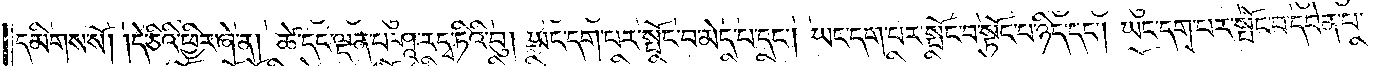དམིགས་སོ། །དེ་ཅིའི་ཕྱིར་ཞེ་ན། ཚེ་དང་ལྡན་པ་ཤཱ་རདྭ་ཏིའི་བུ། ཡང་དག་པར་སྤོང་བ་མེད་པ་དང༌། ཡང་དག་པར་སྤོང་བ་སྟོང་པ་ཉིད་དང༌། ཡང་དག་པར་སྤོང་བ་དབེན་པ་
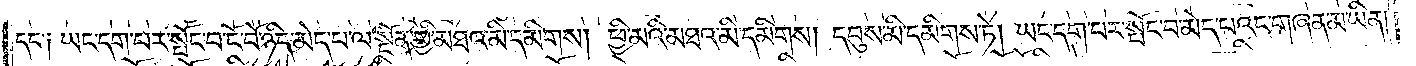དང་༑ ཡང་དག་པར་སྤོང་བ་ངོ་བོ་ཉིད་མེད་པ་ལ་སྔོན་གྱི་མཐའ་མི་དམིགས། ཕྱི་མའི་མཐའ་མི་དམིགས། དབུས་མི་དམིགས་ཏེ། ཡང་དག་པར་སྤོང་བ་མེད་པའང་གཞན་མ་ཡིན།
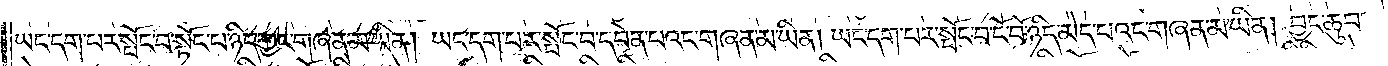ཡང་དག་པར་སྤོང་བ་སྟོང་པ་ཉིད་ཀྱང་གཞན་མ་ཡིན། ཡང་དག་པར་སྤོང་བ་དབེན་པའང་གཞན་མ་ཡིན། ཡང་དག་པར་སྤོང་བ་ངོ་བོ་ཉིད་མེད་པའང་གཞན་མ་ཡིན། བྱང་ཆུབ་
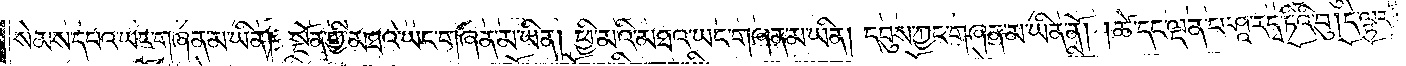སེམས་དཔའ་ཡང་གཞན་མ་ཡིན། སྔོན་གྱི་མཐའ་ཡང་གཞན་མ་ཡིན། ཕྱི་མའི་མཐའ་ཡང་གཞན་མ་ཡིན། དབུས་ཀྱང་གཞན་མ་ཡིན་ནོ། །ཚེ་དང་ལྡན་པ་ཤཱ་རདྭ་ཏིའི་བུ། དེ་ལྟར་
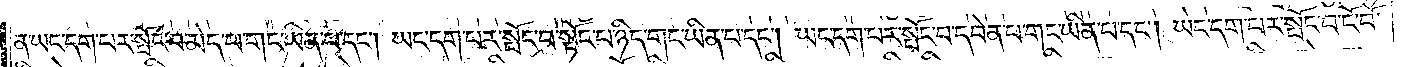ན་ཡང་དག་པར་སྤོང་བ་མེད་པ་གང་ཡིན་པ་དང༌། ཡང་དག་པར་སྤོང་བ་སྟོང་པ་ཉིད་གང་ཡིན་པ་དང༌། ཡང་དག་པར་སྤོང་བ་དབེན་པ་གང་ཡིན་པ་དང༌། ཡང་དག་པར་སྤོང་བ་ངོ་བོ་
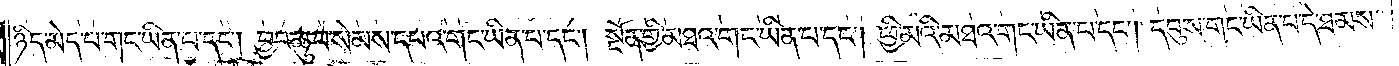ཉིད་མེད་པ་གང་ཡིན་པ་དང༌། བྱང་ཆུབ་སེམས་དཔའ་གང་ཡིན་པ་དང༌། སྔོན་གྱི་མཐའ་གང་ཡིན་པ་དང༌། ཕྱི་མའི་མཐའ་གང་ཡིན་པ་དང༌། དབུས་གང་ཡིན་པ་དེ་ཐམས་
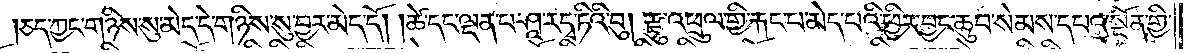ཅད་ཀྱང་གཉིས་སུ་མེད་དེ་གཉིས་སུ་བྱར་མེད་དོ། །ཚེ་དང་ལྡན་པ་ཤཱ་རདྭ་ཏིའི་བུ། རྫུ་འཕྲུལ་གྱི་རྐང་པ་མེད་པའི་ཕྱིར་བྱང་ཆུབ་སེམས་དཔའ་སྔོན་གྱི་
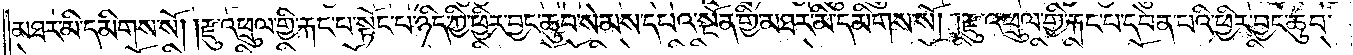མཐར་མི་དམིགས་སོ། །རྫུ་འཕྲུལ་གྱི་རྐང་པ་སྟོང་པ་ཉིད་ཀྱི་ཕྱིར་བྱང་ཆུབ་སེམས་དཔའ་སྔོན་གྱི་མཐར་མི་དམིགས་སོ། །རྫུ་འཕྲུལ་གྱི་རྐང་པ་དབེན་པའི་ཕྱིར་བྱང་ཆུབ་
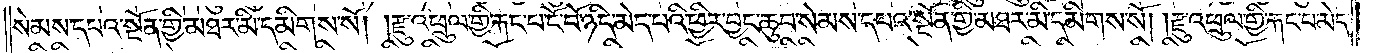སེམས་དཔའ་སྔོན་གྱི་མཐར་མི་དམིགས་སོ། །རྫུ་འཕྲུལ་གྱི་རྐང་པ་ངོ་བོ་ཉིད་མེད་པའི་ཕྱིར་བྱང་ཆུབ་སེམས་དཔའ་སྔོན་གྱི་མཐར་མི་དམིགས་སོ། །རྫུ་འཕྲུལ་གྱི་རྐང་པ་མེད་
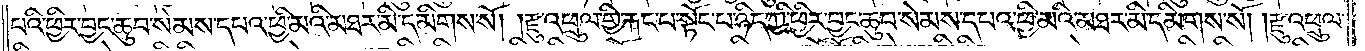པའི་ཕྱིར་བྱང་ཆུབ་སེམས་དཔའ་ཕྱི་མའི་མཐར་མི་དམིགས་སོ། །རྫུ་འཕྲུལ་གྱི་རྐང་པ་སྟོང་པ་ཉིད་ཀྱི་ཕྱིར་བྱང་ཆུབ་སེམས་དཔའ་ཕྱི་མའི་མཐར་མི་དམིགས་སོ། །རྫུ་འཕྲུལ་
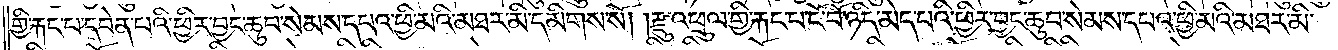གྱི་རྐང་པ་དབེན་པའི་ཕྱིར་བྱང་ཆུབ་སེམས་དཔའ་ཕྱི་མའི་མཐར་མི་དམིགས་སོ། །རྫུ་འཕྲུལ་གྱི་རྐང་པ་ངོ་བོ་ཉིད་མེད་པའི་ཕྱིར་བྱང་ཆུབ་སེམས་དཔའ་ཕྱི་མའི་མཐར་མི་
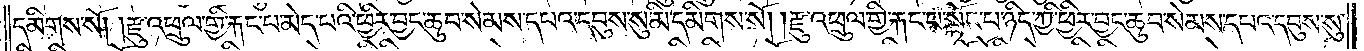དམིགས་སོ། །རྫུ་འཕྲུལ་གྱི་རྐང་པ་མེད་པའི་ཕྱིར་བྱང་ཆུབ་སེམས་དཔའ་དབུས་སུ་མི་དམིགས་སོ། །རྫུ་འཕྲུལ་གྱི་རྐང་པ་སྟོང་པ་ཉིད་ཀྱི་ཕྱིར་བྱང་ཆུབ་སེམས་དཔའ་དབུས་སུ་
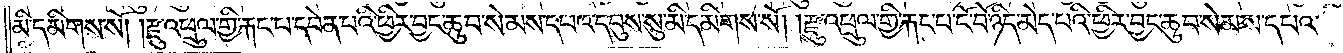མི་དམིགས་སོ། །རྫུ་འཕྲུལ་གྱི་རྐང་པ་དབེན་པའི་ཕྱིར་བྱང་ཆུབ་སེམས་དཔའ་དབུས་སུ་མི་དམིགས་སོ། །རྫུ་འཕྲུལ་གྱི་རྐང་པ་ངོ་བོ་ཉིད་མེད་པའི་ཕྱིར་བྱང་ཆུབ་སེམས་དཔའ་
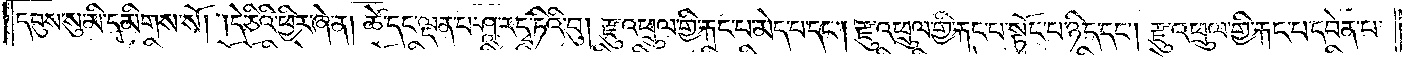དབུས་སུ་མི་དམིགས་སོ། །དེ་ཅིའི་ཕྱིར་ཞེ་ན། ཚེ་དང་ལྡན་པ་ཤཱ་རདྭ་ཏིའི་བུ། རྫུ་འཕྲུལ་གྱི་རྐང་པ་མེད་པ་དང༌། རྫུ་འཕྲུལ་གྱི་རྐང་པ་སྟོང་པ་ཉིད་དང༌། རྫུ་འཕྲུལ་གྱི་རྐང་པ་དབེན་པ་
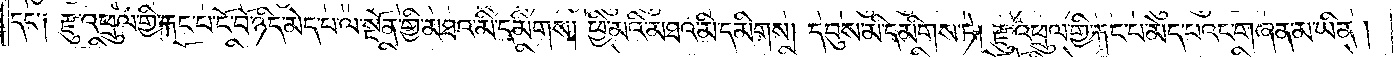དང་༑ རྫུ་འཕྲུལ་གྱི་རྐང་པ་ངོ་བོ་ཉིད་མེད་པ་ལ་སྔོན་གྱི་མཐའ་མི་དམིགས། ཕྱི་མའི་མཐའ་མི་དམིགས། དབུས་མི་དམིགས་ཏེ། རྫུ་འཕྲུལ་གྱི་རྐང་པ་མེད་པའང་གཞན་མ་ཡིན།
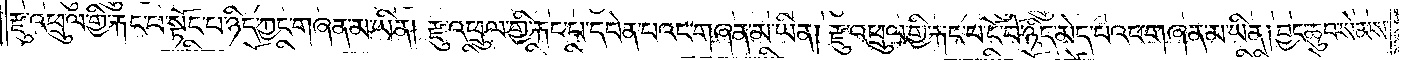རྫུ་འཕྲུལ་གྱི་རྐང་པ་སྟོང་པ་ཉིད་ཀྱང་གཞན་མ་ཡིན། རྫུ་འཕྲུལ་གྱི་རྐང་པ་དབེན་པའང་གཞན་མ་ཡིན། རྫུ་འཕྲུལ་གྱི་རྐང་པ་ངོ་བོ་ཉིད་མེད་པའང་གཞན་མ་ཡིན། བྱང་ཆུབ་སེམས་
